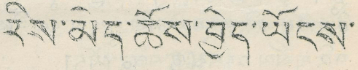རིས་མིང་ཆོས་བྱེད་ཡོངས་
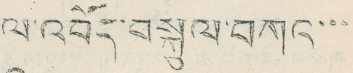ལ་འབོར་བསྐུལ་བཀའ་
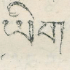ཡིག
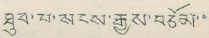ཐུས་པ་སངས་རྒྱས་བཅོལ་་
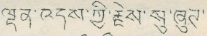བོན་འདས་ཀྱི་རེས་ལས་
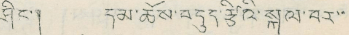ཤིང། དམ་ཆོས་བདུད་རྩིའི་སྐལ་བར་་
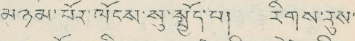མཉམ་པོར་ལོངས་སུ་སྤྱོད་པ། རིགས་རུས་
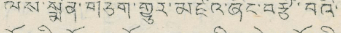ལས་སྨོན་གཅིག་གྱུར་མཛའ་ཞིང་བརྩེ་བའི་
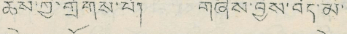ཆོས་ཀྱི་གྲོགས་པོ། གཞིས་བྱེས་བོད་མི་
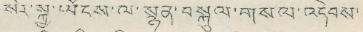སེར་སྐྱ་ཡོངས་ལ་སྙན་བསྐུལ་གསལ་འདེབས་
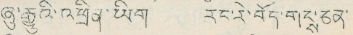ཞུ་རྒྱུའི་འཕྲིན་ཡིག རང་རེ་བོད་གངྶ་ཅན་
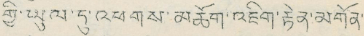གྱི་ཡུལ་དུ་འཕགས་མཆོག་འཇིག་རྟེན་མགོན་
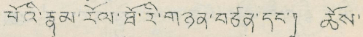བོའི་རྣམ་རོལ་ཐོ་རི་གཉན་བཙན་དང་། ཆོས་
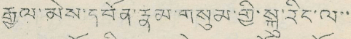རྒྱལ་མེས་དཔོན་རྣམ་གསུམ་གྱི་སྐུ་རིང་ལ་་
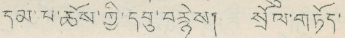དམ་པ་ཆོས་ཀྱི་དབུ་བརྙེས། སྲོལ་གཏོད་
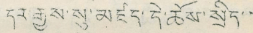དར་རྒྱས་སུ་མཛད་དེ་ཆོས་སྲིད་་
